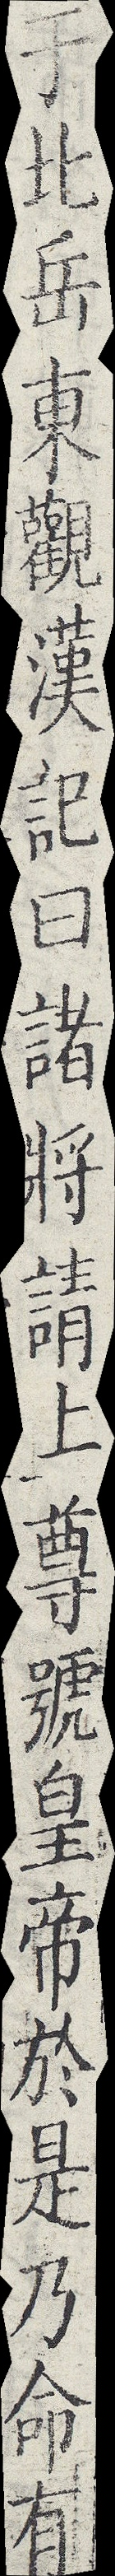于北岳東觀漢記曰諸將請上尊號皇帝於是乃命有
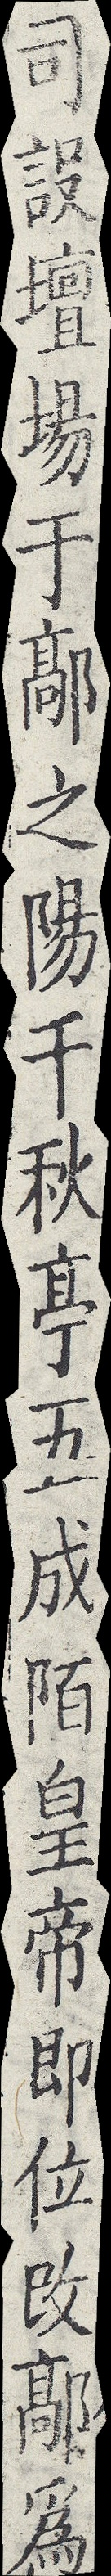司設壇場于鄗之陽千秋亭五成陌皇帝即位改鄗為
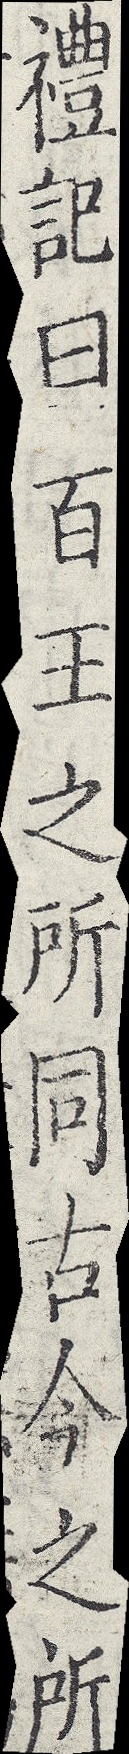禮記曰百王之所同古今之所
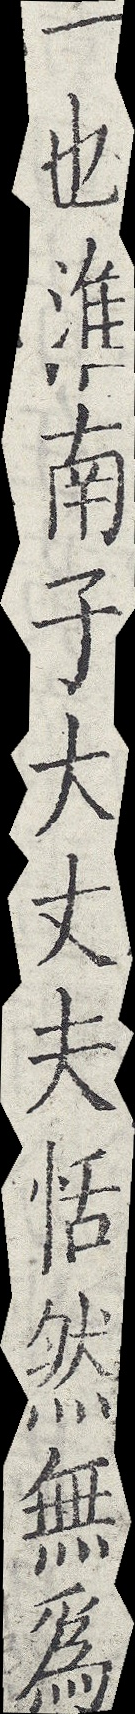一也淮南子大丈夫恬然無為
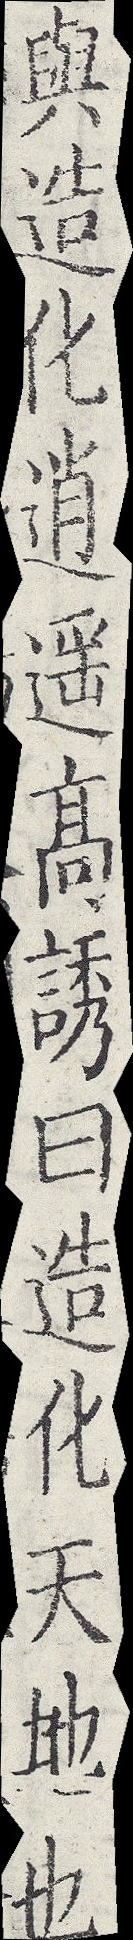與造化逍遙高誘曰造化天地也
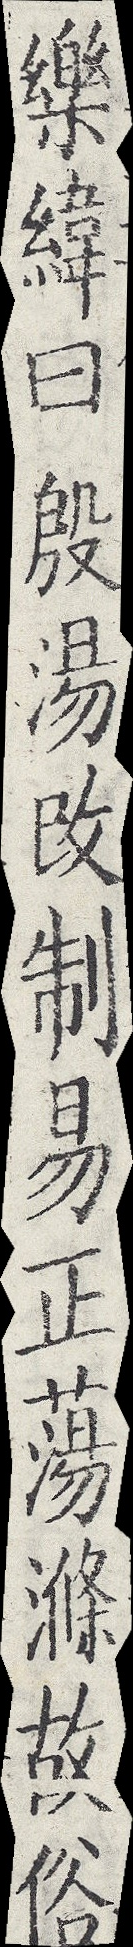樂緯曰殷湯改制易正蕩滌故俗
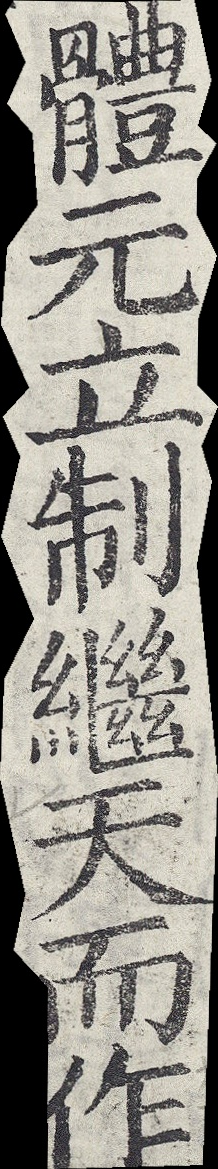體元立制繼天而作
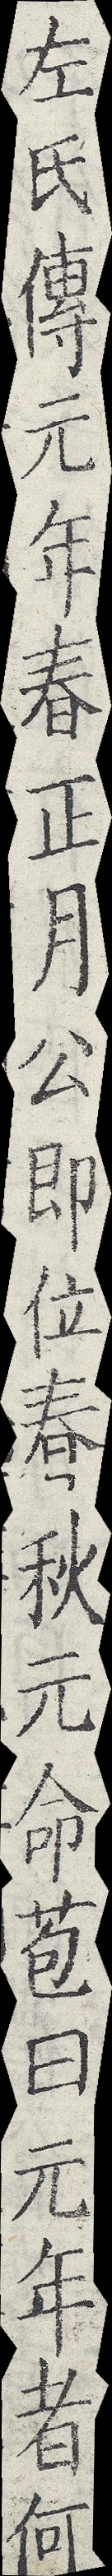左氏傳元年春正月公即位春秋元命苞曰元年者何
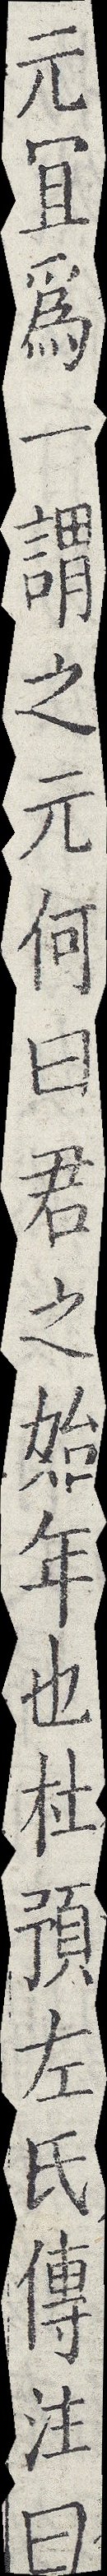元宜為一謂之元何曰君之始年也杜預左氏傳注曰
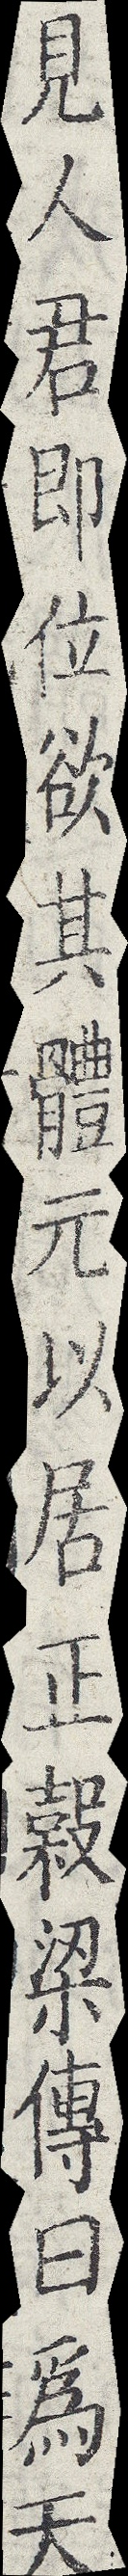見人君即位欲其體元以居正穀梁傳曰為天
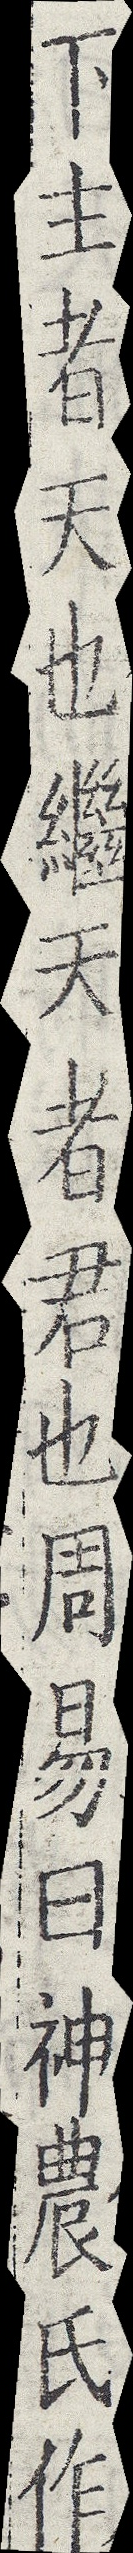下主者天也繼天者君也周易曰神農氏作
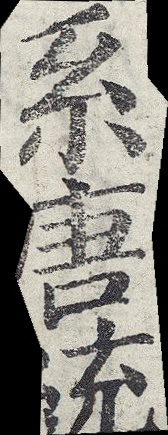系唐統
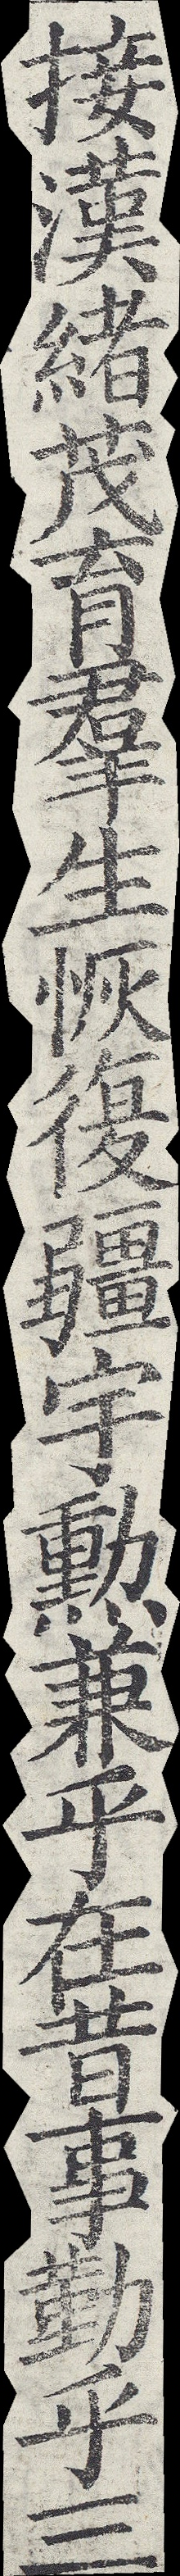接漢緒茂育羣生恢復疆宇勳兼乎在昔事勤乎三
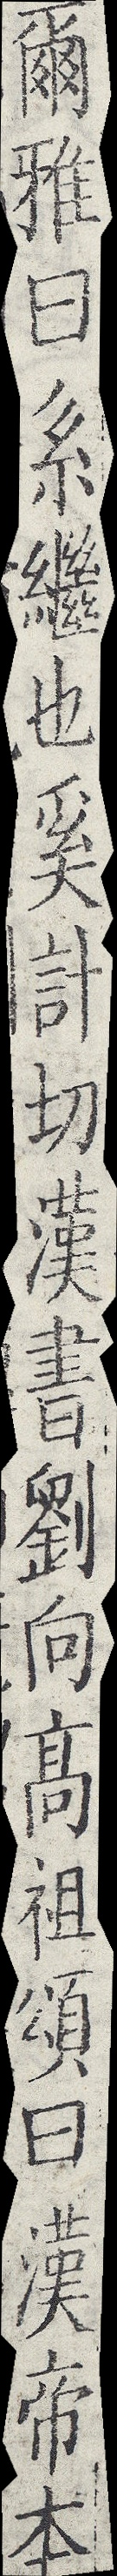爾雅曰系繼也奚計切漢書劉向高祖頌曰漢帝本
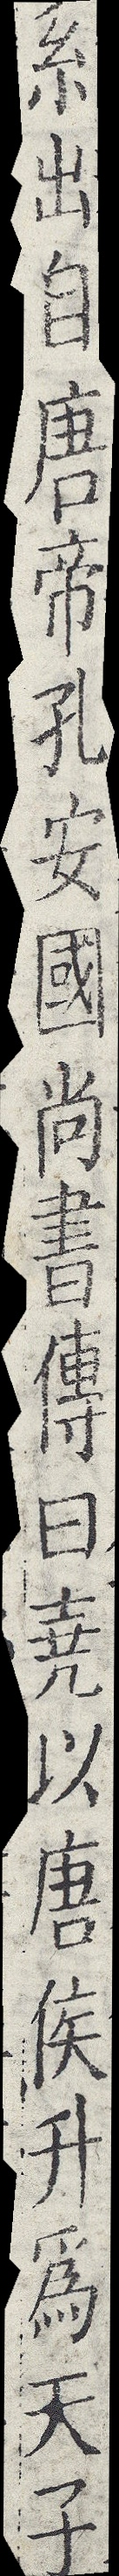系出自唐帝孔安國尙書傳曰堯以唐侯升為天子
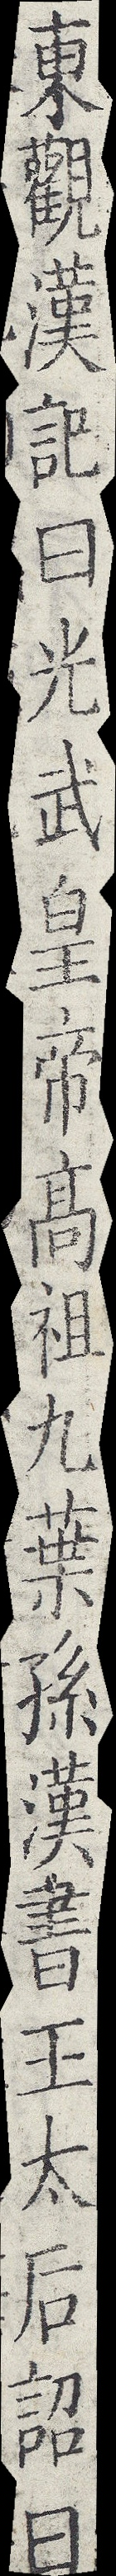東觀漢記曰光武皇帝高祖九葉孫漢書王太后詔曰
